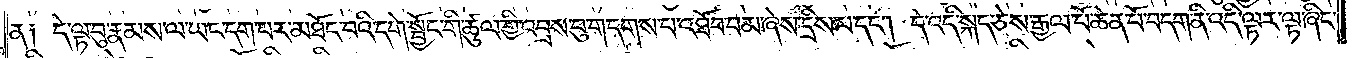ན༑ དེ་ལྟ་བུ་རྣམས་ལ་ཡང་དག་པར་མཐོང་བའི་དགེ་སྦྱོང་གི་ཚུལ་གྱི་འབྲས་བུ་གདགས་པ་འཐོབ་བམ་ཞེས་དྲིས་པ་དང༌། དེ་འདི་སྐད་ཅེས་རྒྱལ་པོ་ཆེན་པོ་བདག་ནི་འདི་ལྟར་ལྟ་ཞིང་
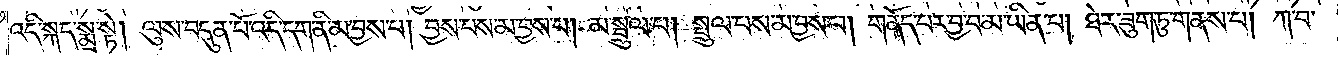འདི་སྐད་སྨྲ་སྟེ། ལུས་བདུན་པོ་འདི་དག་ནི་མ་བྱས་པ། བྱས་པས་མ་བྱས་པ། མ་སྤྲུལ་པ། སྤྲུལ་པས་མ་བྱས་པ། གནོད་པར་བྱ་བ་མ་ཡིན་པ། ཐེར་ཟུག་ཏུ་གནས་པ། ཀ་བ་
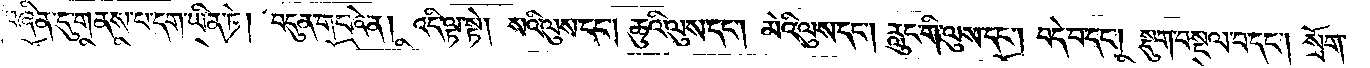བཞིན་དུ་གནས་པ་དག་ཡིན་ཏེ། བདུན་གང་ཞེ་ན། འདི་ལྟ་སྟེ། སའི་ལུས་དང༌། ཆུའི་ལུས་དང༌། མེའི་ལུས་དང༌། རླུང་གི་ལུས་དང༌། བདེ་བ་དང༌། སྡུག་བསྔལ་བ་དང༌། སྲོག་
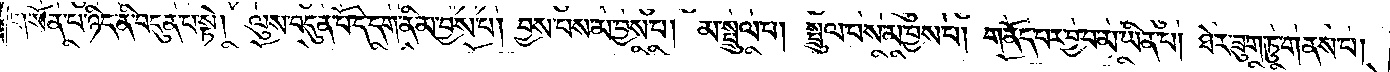གསོན་པ་ཉིད་ནི་བདུན་པ་སྟེ། ལུས་བདུན་པོ་དེ་དག་ནི་མ་བྱས་པ། བྱས་པས་མ་བྱས་པ། མ་སྤྲུལ་པ། སྤྲུལ་པས་མ་བྱས་པ། གནོད་པར་བྱ་བ་མ་ཡིན་པ། ཐེར་ཟུག་ཏུ་གནས་པ།
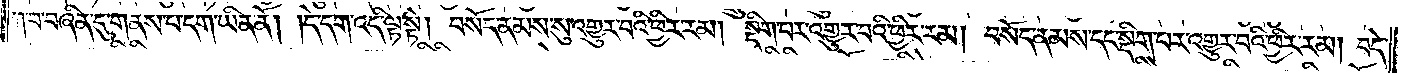ཀ་བ་བཞིན་དུ་གནས་པ་དག་ཡིན་ནོ། །དེ་དག་འདི་ལྟ་སྟེ། བསོད་ནམས་སུ་འགྱུར་བའི་ཕྱིར་རམ། །སྡིག་པར་འགྱུར་བའི་ཕྱིར་རམ། བསོད་ནམས་དང་སྡིག་པར་འགྱུར་བའི་ཕྱིར་རམ། བདེ་
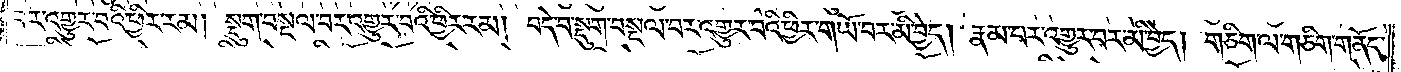བར་འགྱུར་བའི་ཕྱིར་རམ། སྡུག་བསྔལ་བར་འགྱུར་བའི་ཕྱིར་རམ། བདེ་བ་སྡུག་བསྔལ་བར་འགྱུར་བའི་ཕྱིར་གཡོ་བར་མི་བྱེད། རྣམ་པར་འགྱུར་བར་མི་བྱེད། གཅིག་ལ་གཅིག་གནོད་
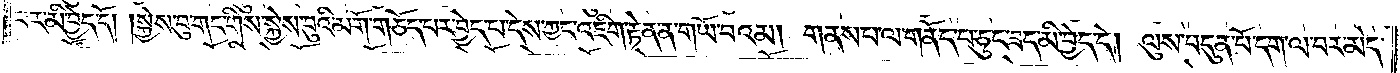པར་མི་བྱེད་དོ། །སྐྱེས་བུ་གང་གིས་སྐྱེས་བུའི་མགོ་གཅོད་པར་བྱེད་པ་དེས་ཀྱང་འཇིག་རྟེན་ན་གཡོ་བའམ། གནས་པ་ལ་གནོད་པ་ཅུང་ཟད་མི་བྱེད་དེ། ལུས་བདུན་པོ་དག་ལ་བར་མེད་
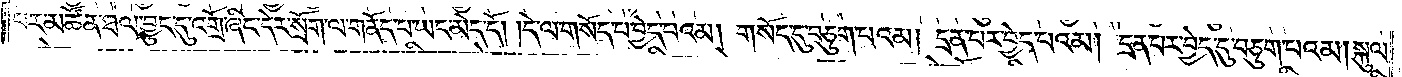པར་མཚོན་ཐལ་བྱུང་དུ་འགྲོ་ཞིང་དེར་སྲོག་ལ་གནོད་པ་ཡང་མེད་དོ། །དེ་ལ་གསོད་པ་བྱེད་པའམ། གསོད་དུ་བཅུག་པའམ། དྲན་པར་བྱེད་པའམ། དྲན་པར་བྱེད་དུ་བཅུག་པའམ། སྐུལ་
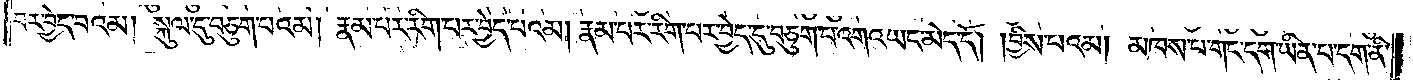བར་བྱེད་པའམ། སྐུལ་དུ་བཅུག་པའམ། རྣམ་པར་རིག་པར་བྱེད་པའམ། རྣམ་པར་རིག་པར་བྱེད་དུ་བཅུག་པ་འགའ་ཡང་མེད་དོ། །བྱིས་པའམ། མཁས་པ་གང་དག་ཡིན་པ་དག་ནི་
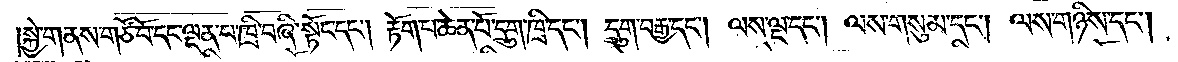།སྐྱེ་གནས་གཙོ་བོ་དང་ལྡན་པ་ཁྲི་བཞི་སྟོང་དང༌། རྟོག་པ་ཆེན་པོ་དྲུག་ཁྲི་དང༌། དྲུག་བརྒྱ་དང༌། ལས་ལྔ་དང༌། ལས་གསུམ་དང༌། ལས་གཉིས་དང༌།
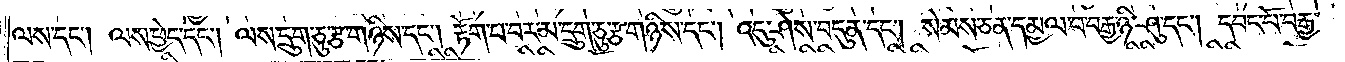ལས་དང༌། ལས་ཕྱེད་དང༌། ལས་དྲུག་ཅུ་རྩ་གཉིས་དང༌། རྟོག་པ་བར་མ་དྲུག་ཅུ་རྩ་གཉིས་དང༌། འདུ་ཤེས་བདུན་དང༌། སེམས་ཅན་དམྱལ་བ་བརྒྱ་ཉི་ཤུ་དང༌། དབང་པོ་བརྒྱ་
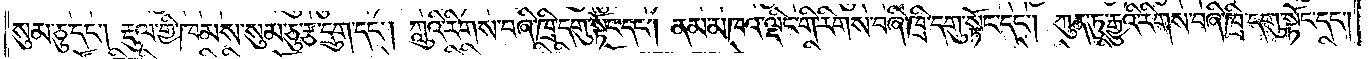སུམ་ཅུ་དང༌། རྡུལ་གྱི་ཁམས་སུམ་ཅུ་རྩ་དྲུག་དང༌། ཀླུའི་རིགས་བཞི་ཁྲི་དགུ་སྟོང་དང༌། ནམ་མཁའ་ལྡིང་གི་རིགས་བཞི་ཁྲི་དགུ་སྟོང་དང༌། ཀུན་ཏུ་རྒྱུའི་རིགས་བཞི་ཁྲི་དགུ་སྟོང་དང༌།
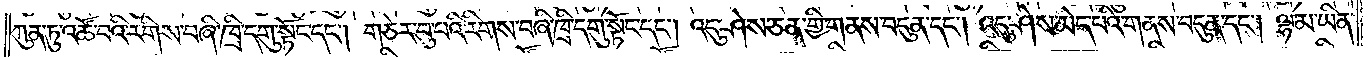ཀུན་ཏུ་འཚོ་བའི་རིགས་བཞི་ཁྲི་དགུ་སྟོང་དང༌། གཅེར་བུ་པའི་རིགས་བཞི་ཁྲི་དགུ་སྟོང་དང༌། འདུ་ཤེས་ཅན་གྱི་གནས་བདུན་དང༌། འདུ་ཤེས་མེད་པའི་གནས་བདུན་དང༌། ལྷ་མ་ཡིན་
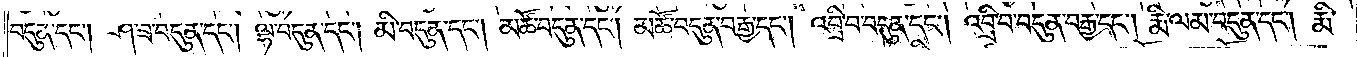བདུན་དང༌། ཤ་ཟ་བདུན་དང༌། ལྷ་བདུན་དང༌། མི་བདུན་དང༌། མཚོ་བདུན་དང༌། མཚོ་བདུན་བརྒྱ་དང༌། འབྲི་བ་བདུན་དང༌། འབྲི་བ་བདུན་བརྒྱ་དང༌། རྨི་ལམ་བདུན་དང༌། རྨི་
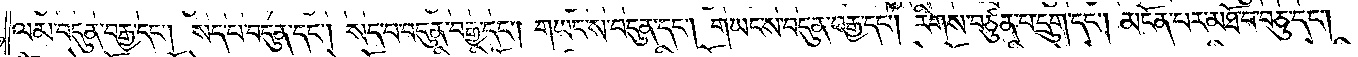ལམ་བདུན་བརྒྱ་དང༌། སད་པ་བདུན་དང༌། སད་པ་བདུན་བརྒྱ་དང༌། གཡང་ས་བདུན་དང༌། གཡང་ས་བདུན་བརྒྱ་དང༌། རིགས་བཙུན་པ་དྲུག་དང༌། མངོན་པར་མཐོ་བ་བཅུ་དང༌།
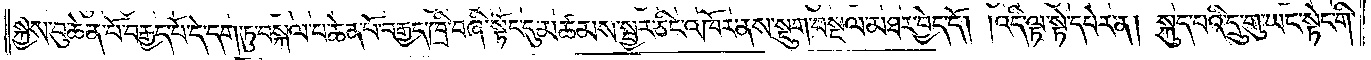སྐྱེས་བུ་ཆེན་པོ་བརྒྱད་པོ་དེ་དག་ཏུ་བསྐལ་པ་ཆེན་པོ་བརྒྱད་ཁྲི་བཞི་སྟོང་དུ་མཚམས་སྦྱར་ཅིང་འཁོར་ནས་སྡུག་བསྔལ་མཐར་བྱེད་དོ། །འདི་ལྟ་སྟེ་དཔེར་ན། སྐུད་པའི་དྲུ་གུ་ཡང་སྟེང་གི་
